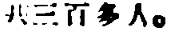共三百多人。
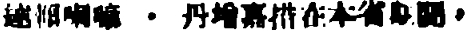達賴喇嘛 ・ 丹增嘉措在本省期間，
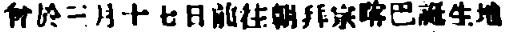曾於三月十七日前往朝拜宗喀巴誕生地
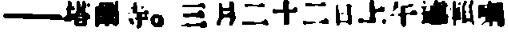——塔爾寺。三月二十二日上午達賴喇
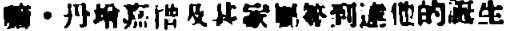嘛・丹增嘉措及其家屬等到達他的誕生
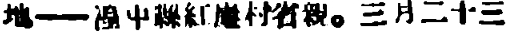地——湟中縣紅崖村省親。三月二十三
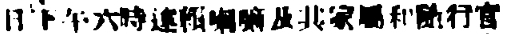日下午六時達賴喇嘛及其家屬和隨行官
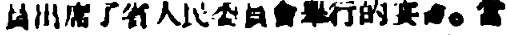員出席了省人民委員會舉行的宴會。當
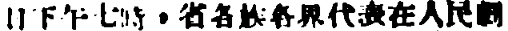日下午七時，省各族各界代表在人民劇
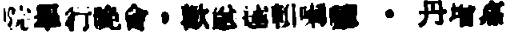院舉行晚會，歡送達賴喇嘛 ・ 丹增嘉
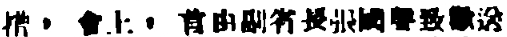措，會上，首由副省長張國聲致歡送
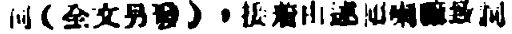詞（全文另發），接着由達賴喇嘛致詞
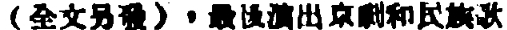（全文另發），最後演出京劇和民族歌
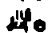舞。
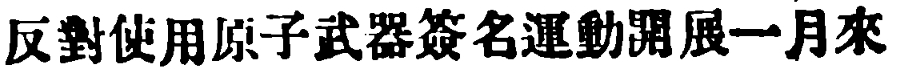反對使用原子武器簽名運動開展一月來
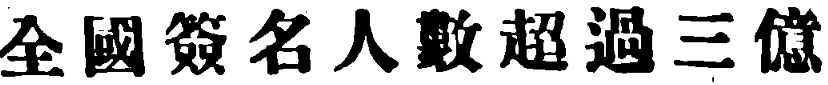全國簽名人數超過三億
